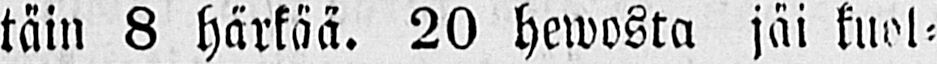täin 8 härkää. 20 hewosta jäi kuol-
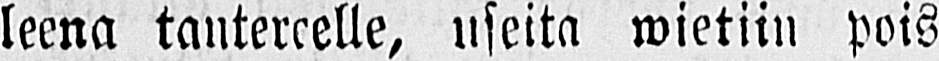leena tantereelle, useita wietiin pois
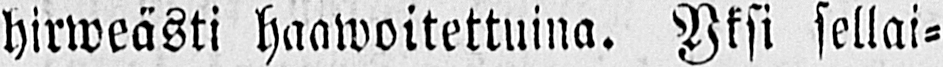hirweästi haawoitettuina. Yksi sellai-
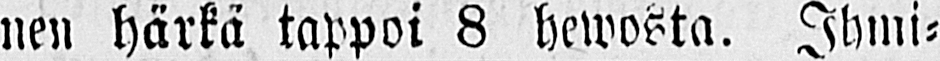nen härkä tappoi 8 hewosta. Ihmi-
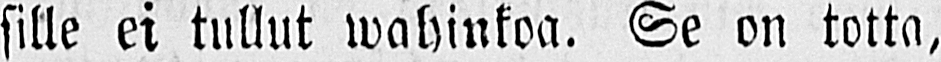sille ei tullut wahinkoa. Se on totta,
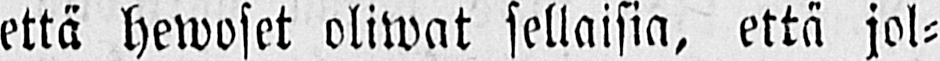että hewoset oliwat sellaisia, että jol-
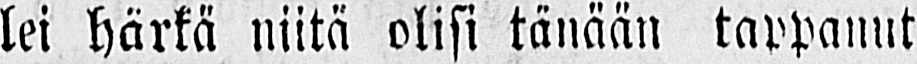lei härkä niitä olisi tänään tappanut
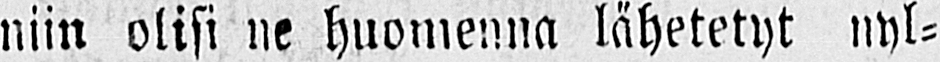niin olisi ne huomenna lähetetyt nyl-
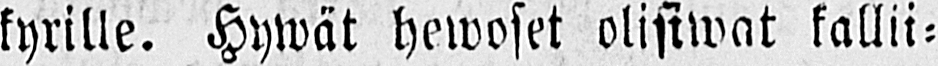kyrille. Hywät hewoset olisiwat kallii-
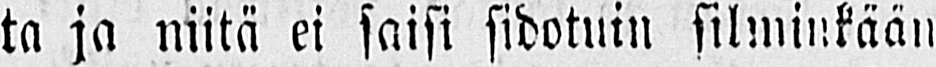ta ja niitä ei saisi sidotuin silminkään
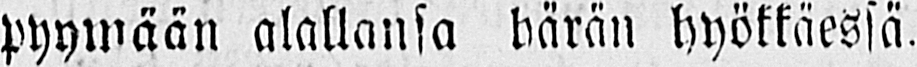pyymään alallansa härän hyökkäessä.
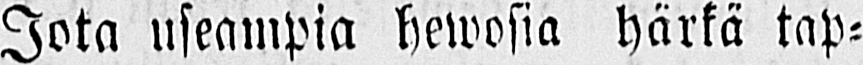Jota useampia hewosia härkä tap-
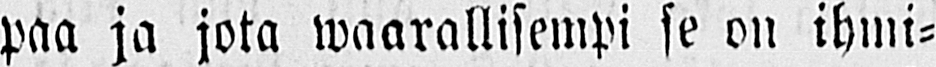paa ja jota waarallisempi se on ihmi-
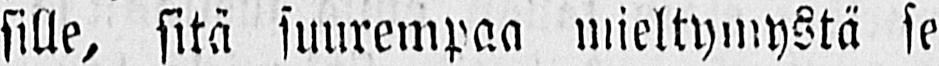sille, sitä suurempaa mieltymystä se
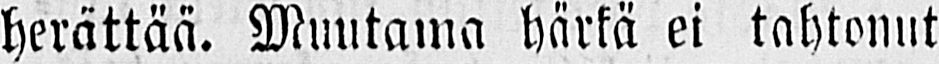herättää. Muutama härkä ei tahtonut
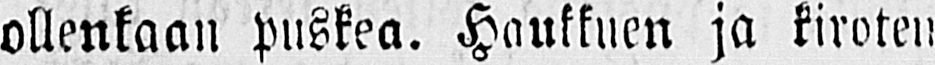ollenkaan puskea. Haukkuen ja kiroten
